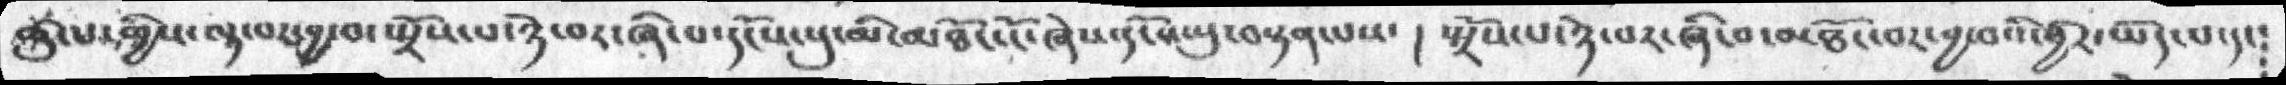ཚུ་པ་གྱིས་ལྟ་བར་བྱ་བ་སྤྲོས་པ་ཉེ་བར་ཞི་པ་དངོས་སུ་མི་མཐོང་ངོ་ཞེས་དངོས་སུ་བསྟན་པས་  ། སྤྲོས་པ་ཉེ་བར་ཞི་བ་མཐོང་བར་བྱ་བའི་ཕྱིར་ཡོད་པ་དང༴
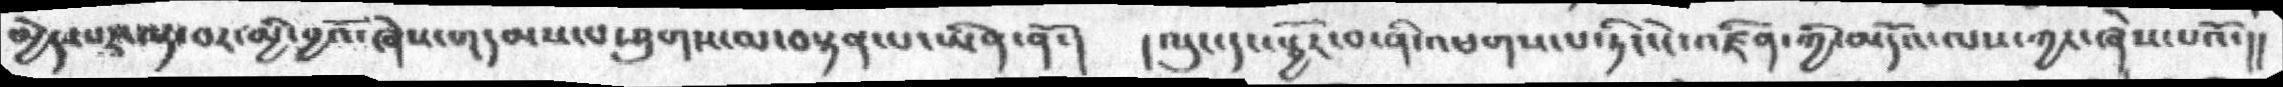མྱེད་པར་ལྟ་བར་མྱི་བྱའོ་ཞེས་གདམས་པ་ཤུགས་ལ་བསྟན་པ་ཡིན་ནོ་།  ། ལུང་དང་སྦྱོར་བ་ནི་འཕགས་པ་ཏིང་ངེ་འཛིན་ཀྱི་མདོའ་ལས་ཀྱང་ཞེས་པའོ་།།
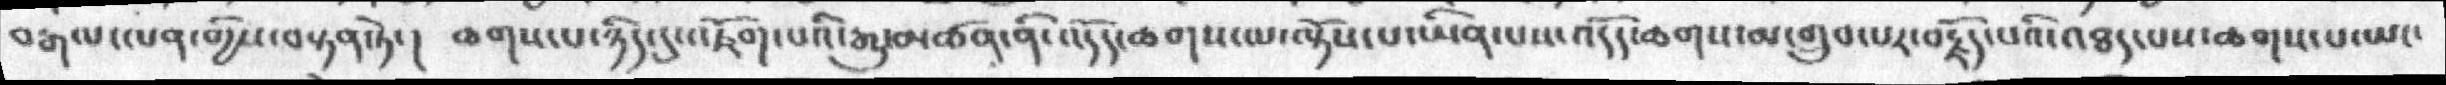བརྒལ་ལན་གྱིས་བསྟན་ཏེ་།  ཆགས་པ་ཉིད་དུ་འཇོག་པའི་རྒྱུ་མཚན་ནི་འདོད་ཆགས་ལ་ལྟོས་པ་ཡིན་པས་འདོད་ཆགས་མ་གྲུབ་པར་བརྗོད་པའི་འཐད་པས་ཆགས་པ་ཡང་
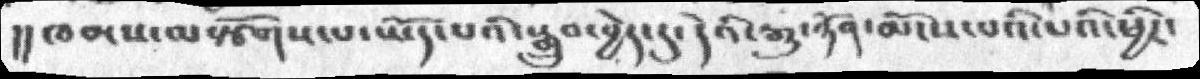།།ཁམས་ལསྩོགས་པ་ཡོད་པའི་སྒྲུབ་བྱེད་དུ་དེའི་རྒྱུ་ཉོན་མོངས་པའི་པའི་ཕྱིར་
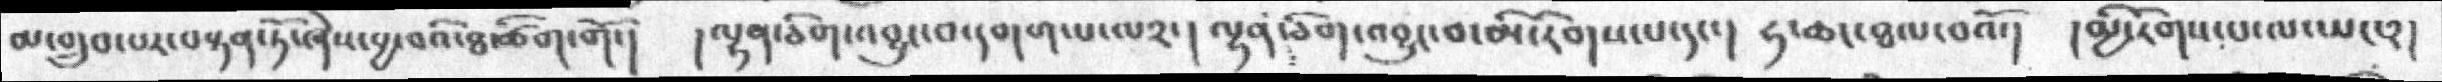མ་གྲུབ་པར་བསྟན་ཏོ་ཞེས་བྱ་བའི་ཐ་ཚིག་གོ་།  །ལྷན་ཅིག་འབྱུང་བ་དགག་པ་ལ༢་།  ལྷན་ཅིག་འབྱུང་བ་མི་རིགས་པ་དང་།  ཧ་ཆང་ཐལ་བའོ་།  །མྱི་རིགས་པ་ལ་ཡང་༢།
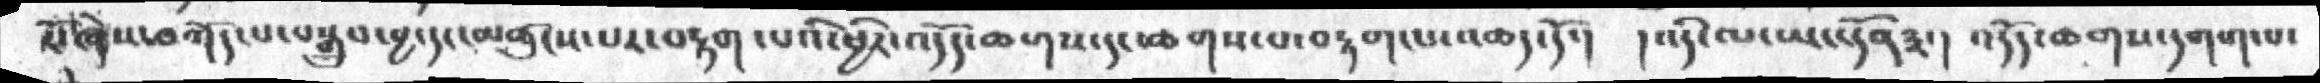སོ་ཞེས་བཀོད་པ་བསྒྲུབ་བྱ་དང་མཚུངས་པར་བརྟག་པའི་ཕྱིར་འདོད་ཆགས་དང་ཆགས་པ་བརྟག་པ་འཆད་དོ་།  ། འདི་ལ་ཡང་དོན་༣་།  འདོད་ཆགས་དགག་པ་
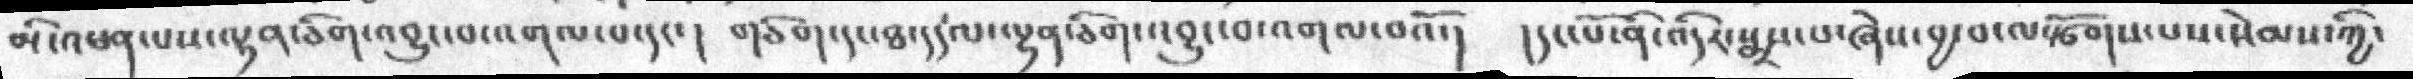མི་འཕན་པས་ལྷན་ཅིག་འབྱུང་བ་འགལ་པ་དང་།  གཅིག་དང་ཐ་དད་ལ་ལྷན་ཅིག་འབྱུང་བ་འགལ་བའོ་།  །དང་པོ་ནི་འདིར་སྨྲས་པ་ཞེས་བྱ་བ་ལསྩོགས་པས་སེམས་ཀྱི་
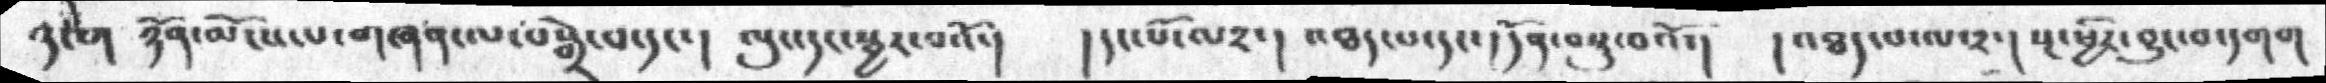༢་པ་  ཉོན་མོངས་པགཞན་ལ་བསྒྲེ་བ་དང་།  ལུས་དང་སྦྱར་བའོ་།   །དང་པོ་ལ༢་།   འཐད་པ་དང་དོན་བསྡུ་བའོ་།   །འཐད་པ་ལ་༢་། སྔ་ཕྱིར་བྱུང་བ་དགག་
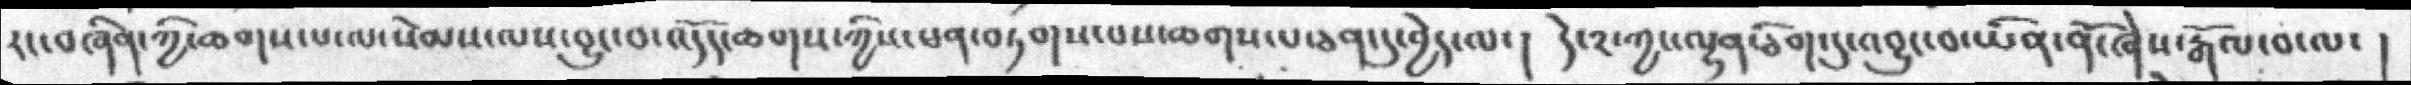རང་བཞིན་ཀྱི་ཆགས་པ་ལ་སེམས་ལས་བྱུང་བ་འདོད་ཆགས་ཀྱིས་ཕན་བཏགས་པས་ཆགས་པ་ཅན་དུ་བྱེད་ལ་།  དེ་༢་ཀྱང་ལྷན་ཅིག་དུ་འབྱུང་བ་ཡིན་ནོ་ཞེས་རྒོལ་བ་ལ་  །
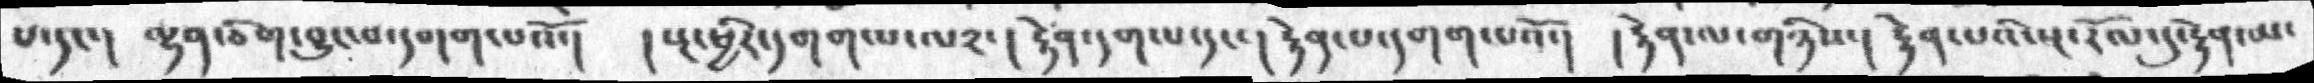པ་དང་།   ལྷན་ཅིག་བྱུང་བ་དགག་པའོ་།   །སྔ་ཕྱིར་དགག་པ་ལ༢་། རྟེན་དག་པ་དང་།  རྟེན་པ་དགག་པའོ་།   །རྟེན་ལ་གཉིས་།  རྟེན་པའི་སྔ་རོལ་དུ་རྟེན་མ་
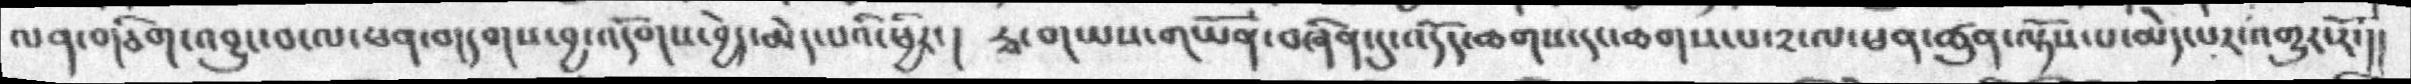ལན་གཅིག་འབྱུང་བ་ལ་ཕན་གདགས་བྱ་འདོགས་བྱེད་མེད་པའི་ཕྱིར་།  རྭ་གཡས་གཡོན་བཞིན་དུ་འདོད་ཆགས་དང་ཆགས་པ་༢་ལ་ཕན་ཚུན་ལྟོས་པ་མེད་པར་འགྱུར་རོ་།།
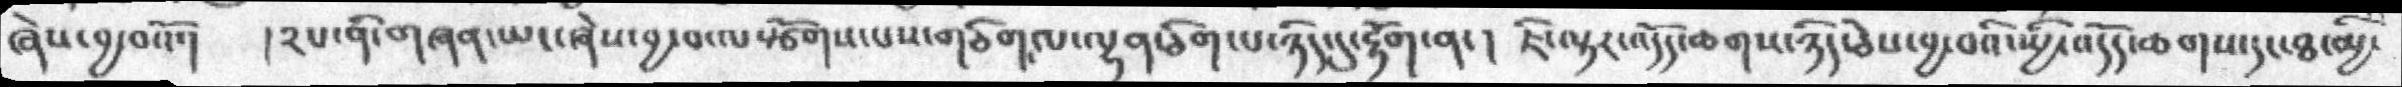ཞེས་བྱ་བའོ་།  །༢པ་ནི་གཞན་ཡང་ཞེས་བྱ་བ་ལསྩོགས་པས་གཅིག་ལ་ལྷན་ཅིག་པ་ཉིད་དུ་རྟོག་ན་།  ཇི་ལྟར་འདོད་ཆགས་ཉིད་ཅེས་བྱ་བའི་སྤྱི་འདོད་ཆགས་དང་ཐ་མྱི་
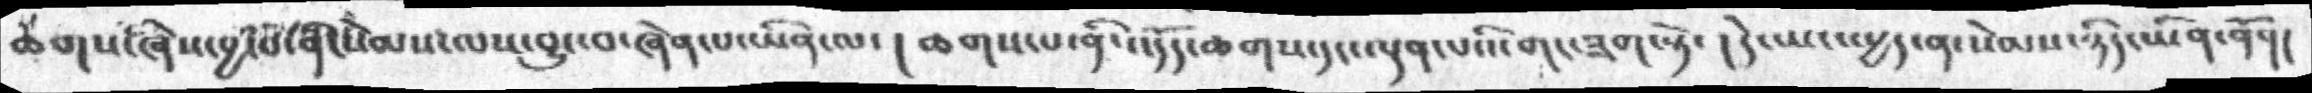ཆགས་ཞེས་བྱ་བ་ནི་སེམས་ལས་བྱུང་བ་ཞེན་པ་ཡིན་ལ་།  ཆགས་པ་ནི་འདོད་ཆགས་དང་ལྡན་པའི་གང་ཟག་སྟེ་ ། དེ་ཡང་སྤྱད་ན་སེམས་ཉིད་ཡིན་ནོ་།།
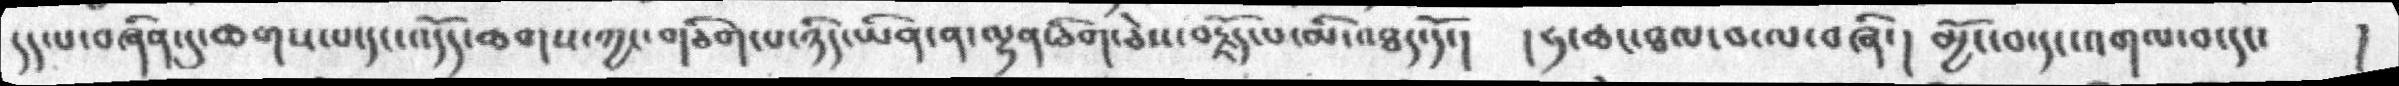དད་པ་བཞིན་དུ་ཆགས་པ་དང་འདོད་ཆགས་ཀྱང་གཅིག་པ་ཉིད་ཡིན་ན་ལྷན་ཅིག་ཅེས་བརྗོད་པ་མི་འཐད་དོ་།  ། ཧ་ཆང་ཐལ་བ་ལ་བཞི་།  མྱོང་བ་དང་འགལ་བ་དང་   །
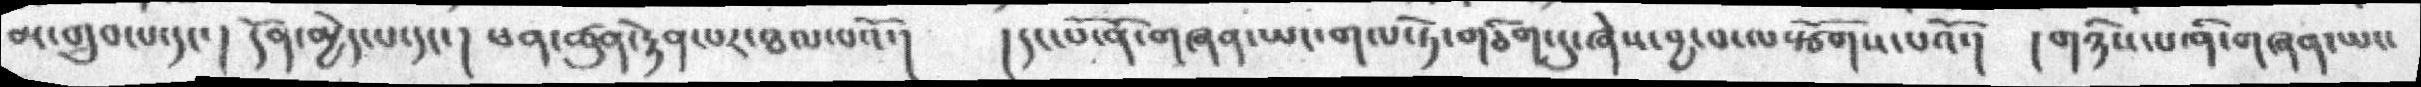མ་གྲུབ་པ་དང་།  དོན་མྱེད་པ་དང་། ཕན་ཚུན་རྟེན་པར་ཐལ་པའོ་།  ། དང་པོ་ནི་གཞན་ཡང་གལ་ཏེ་གཅིག་དུ་ཞེས་བྱ་བ་ལསྩོགས་པའོ་།  ། གཉིས་པ་ནི་གཞན་ཡང་
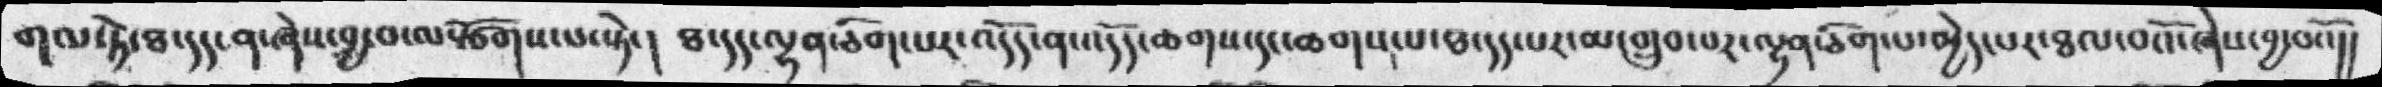གལ་ཏེ་ཐ་དད་ན་ཞེས་བྱ་བ་ལསྩོགས་པ་སྟེ་།  ཐ་དད་ལྷན་ཅིག་པར་འདོད་ན་འདོད་ཆགས་དང་ཆགས་པ་ཐ་དད་པར་མ་གྲུབ་པར་ལྷན་ཅིག་པ་མྱེད་པར་ཐལ་བའོ་ཞེས་བྱ་བའོ།།
